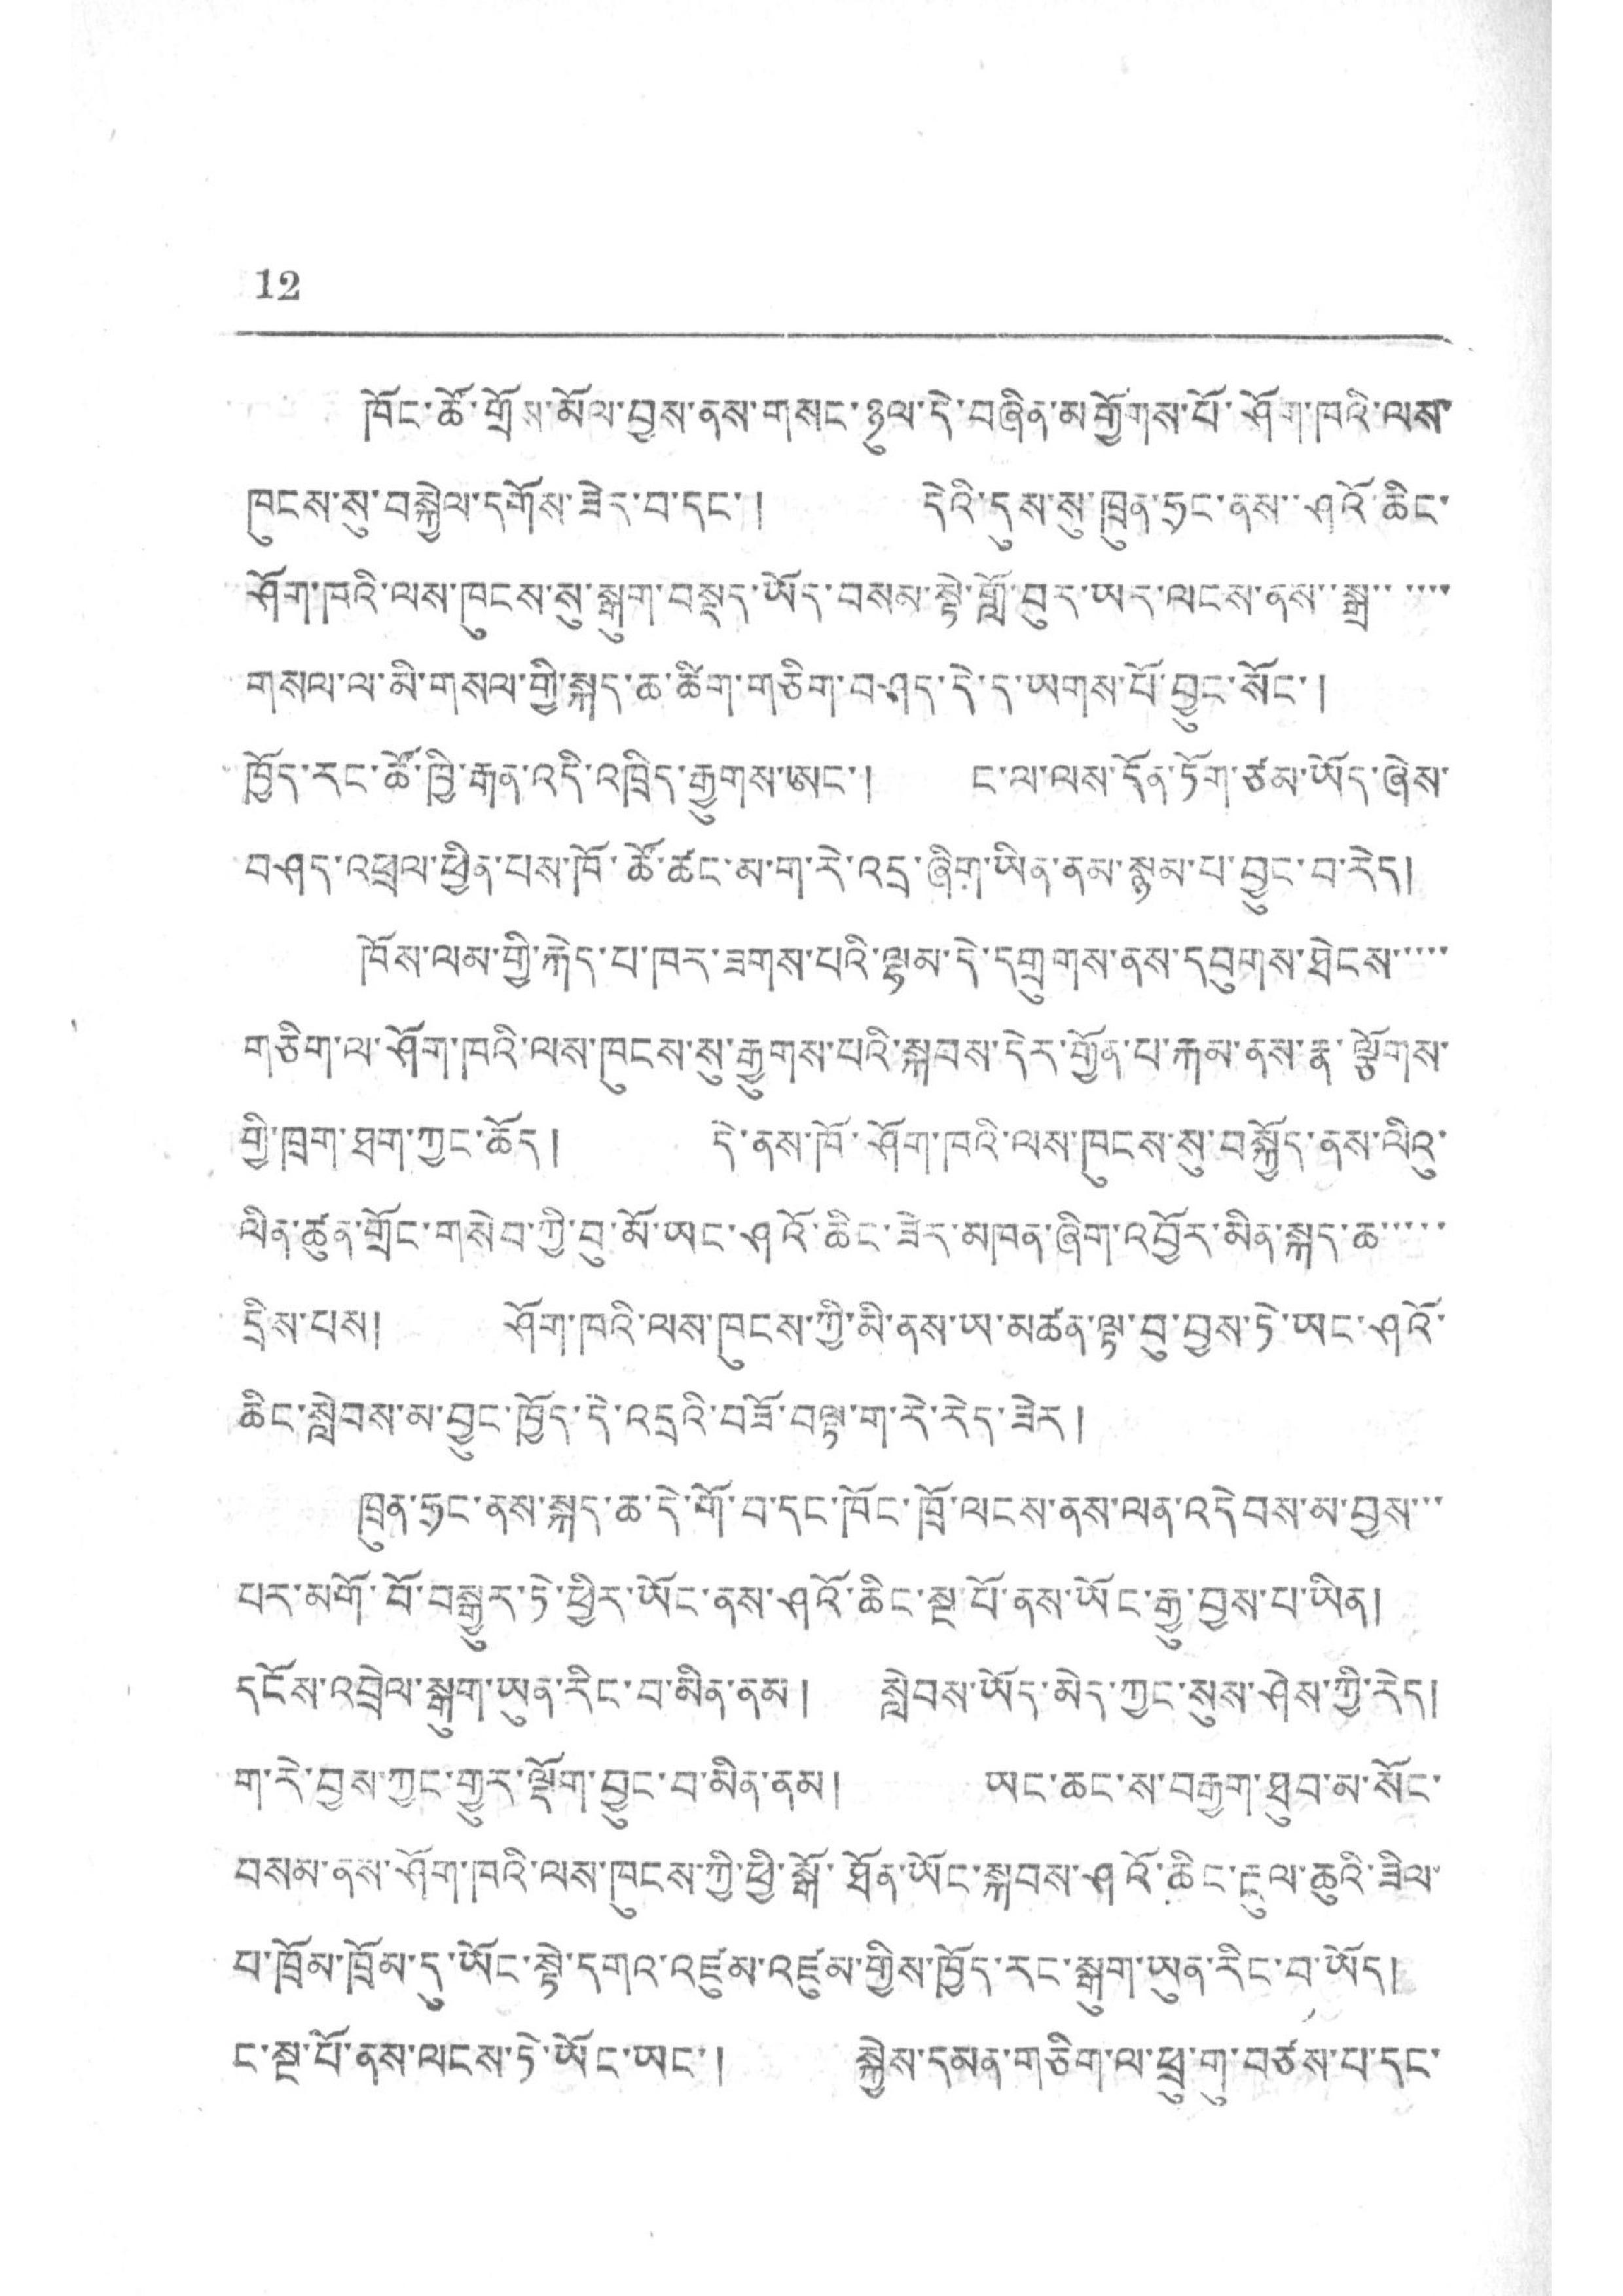12
ཁོང་ཚོ་གྲོས་མོལ་བྱས་ནས་གསང་ཉུལ་དེ་བཞིན་མགྱོགས་པོ་ཤོག་ཁའི་ལས་
ཁུངས་སུ་བསྐྱེལ་དགོས་ཟེར་བ་དང་། དེའི་དུས་སུ་ཁྲུན་ཧྲང་ནས་་ཤུའོ་ཆིང་
ཤོག་ཁའི་ལས་ཁུངས་སུ་སྒུག་བསྡད་ཡོད་བསམ་སྟེ་གློ་བུར་ཡར་ལངས་ནས་སྒྲ་་་་་་
གསལ་ལ་མི་གསལ་གྱི་སྐད་ཆ་ཚིག་གཅིག་བཤད་དི་ད་ཡགས་པོ་བྱུང་སོང་།
ཁྱོད་རང་ཚོ་ཁྱི་རྒན་འདི་འཁྲིད་རྒྱུགས་ཨང་། ང་ལ་ལས་དོན་ཏོག་ཙམ་ཡོད་ཞེས་
བཤད་འཕྲལ་ཕྱིན་པས་ཁོ་ཚོ་ཚང་མ་ག་རེ་འདྲ་ཞིག་ཡིན་ནམ་སྙམ་པ་བྱུང་བ་རེད།
ཁོས་ལམ་གྱི་རྐེད་པ་ཁར་ཟགས་པའི་ལྷམ་དེ་དགྲུགས་ནས་དབུགས་ཐེངས་་་་་
གཅིག་ལ་ཤོག་ཁའི་ལས་ཁུངས་སུ་རྒྱུགས་པའི་སྐབས་དེར་གྱོན་པ་རྐམ་ནས་རྣ་ལྕོགས་
གྱི་ཁྲག་ཐག་ཀྱང་ཆོད། དེ་ནས་ཁོ་ཤོག་ཁའི་ལས་ཁུངས་སུ་བསྐྱོད་ནས་ལིའུ་
ལིན་ཚུན་གྲོང་གསེབ་ཀྱི་བུ་མོ་ཡང་ཤའོ་ཆིང་ཟེར་མཁན་ཞིག་འབྱོར་མིན་སྐད་ཆ་་་་་
དྲེས་པས། ཤོག་ཁའི་ལས་ཁུངས་ཀྱི་མི་ནས་ཡ་མཚན་ལྟ་བུ་བྱས་ཏེ་ཡང་ཤའོ་
ཆིང་སླེབས་མ་བྱུང་ཁྱོད་དེ་འདྲའི་བཟོ་བལྟ་ག་རེ་རེད་ཟེར།
ཁྲུན་ཧྲང་ནས་སྐད་ཆ་དེ་གོ་བ་དང་ཁོང་ཁྲོ་ལངས་ནས་ལན་འདེབས་མ་བྱས་་་
པར་མགོ་བོ་བསྒྱུར་ཏེ་ཕྱིར་ཡོང་ནས་ཤའོ་ཆིང་སྔ་པོ་ནས་ཡོང་རྒྱུ་བྱས་པ་ཡིན།
དངོས་འབྲེལ་སྒུག་ཡུན་རིང་བ་མིན་ནམ། སླེབས་ཡོད་མེད་ཀྱང་སུས་ཤེས་ཀྱི་རེད།
ག་རེ་བྱས་ཀྱང་གྱུར་ལྡོག་བྱུང་བ་མིན་ནམ། ཡང་ཆང་ས་བརྒྱག་ཐུབ་མ་སོང་
བསམ་ནས་ཤོག་ཁའི་ལས་ཁུངས་ཀྱི་ཕྱི་སྒོ་ཐོན་ཡོང་སྐབས་ཤའོ་ཆིང་རྔུལ་ཆུའི་ཟིལ་
པ་ཁྲོམ་ཁྲོམ་དུ་ཡོང་སྟེ་དགའ་འཛུམ་འཛུམ་གྱིས་ཁྱོད་རང་སྒྲུག་ཡུན་རིང་བ་ཡོད།
ང་སྔ་པོ་ནས་ལངས་ཏེ་ཡོང་ཡང་། སྐྱེས་དམན་གཅིག་ལ་ཕྲུ་གུ་བཙས་པ་དང་
